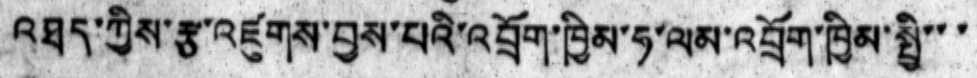འཐུད་ཀྱིས་རྩ་འཛུགས་བྱས་པའི་འབྲོག་ཁྱིམ་ཧ་ལམ་འབྲོག་ཁྱིམ་སྤྱི་་་
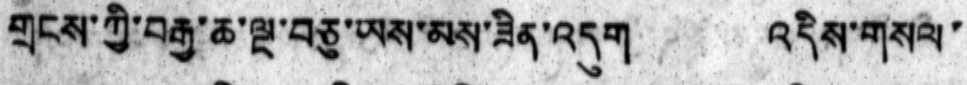གྲངས་ཀྱི་བརྒྱ་ཆ་ལྔ་བཅུ་ཡས་མས་ཟིན་འདུག འདིས་གསལ་
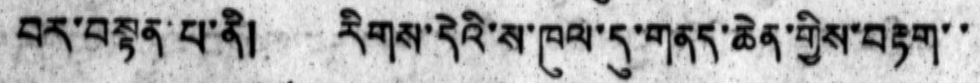བར་བསྟན་པ་ནི། རིགས་དེའི་ས་ཁུལ་དུ་གནད་ཆེན་གྱིས་བརྟག་་
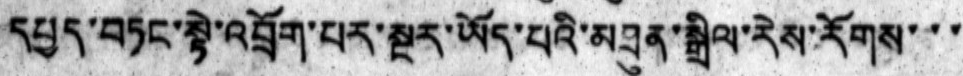དཔྱད་བཏང་སྟེ་འབྲོག་པར་སྔར་ཡོད་པའི་མཐུན་སྒྲིལ་རེས་རོགས་་་
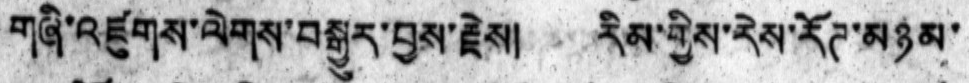གཞི་འཛུགས་ལེགས་བསྒྱུར་བྱས་རྗེས། རིམ་གྱིས་རེས་རོཊ་མཉམ་
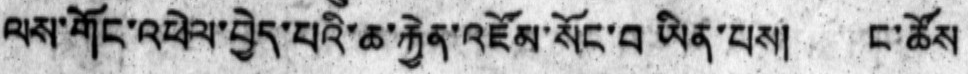ལས་གོང་འཕེལ་བྱེད་པའི་ཆ་རྐྱེན་འཛོམ་སོང་བ ཡིན་པས། ང་ཚོས་
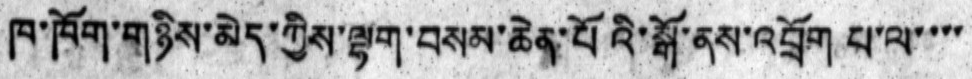ཁ་ཁོག་གཉིས་མེད་ཀྱིས་ལྷག་བསམ་ཆེན་པོའི་སྒོ་ནས་འབྲོག པ་ལ་་་་
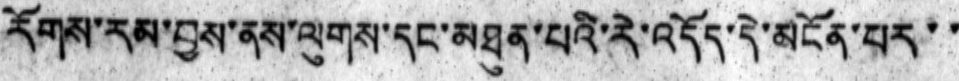རོགས་རམ་བྱས་ནས་ལུགས་དང་མཐུན་པའི་རེ་འདོད་དེ་མངོན་པར་་
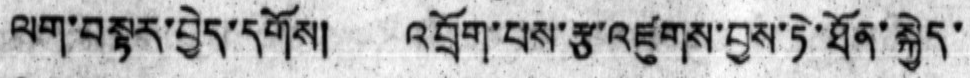ལག་བསྟར་བྱེད་དགོས། འབྲོག་པས་རྩ་འཛུགས་བྱས་ཏེ་ཐོན་སྐྱེད་
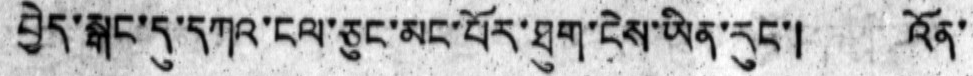བྱེད་སྒང་དུ་དཀའ་ངལ་ཅུང་མང་པོར་ཐུག་ངེས་ཡིན་རུང་། འོན་
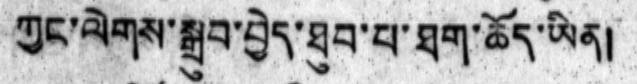ཀྱང་ལེགས་སྒྲུབ་བྱེད་ཐུབ་པ་ཐག་ཆོད་ཡིན།
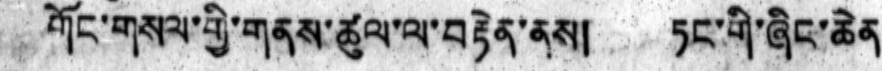གོང་གསལ་གྱི་གནས་ཚུལ་ལ་བརྟེན་ནས། ཏང་གི་ཞིང་ཆེན
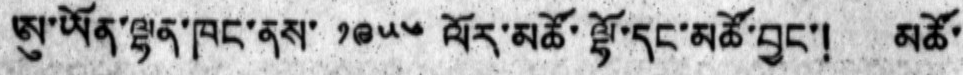ཨུ་ཡོན་ལྷན་ཁང་ནས་ ༡༩༥༦ ལོར་མཚོ་ལྷོ་དང་མཚོ་བྱང་། མཚོ་
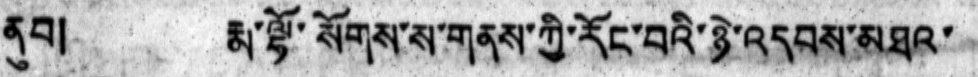ནུབ། རྨ་ལྷོ་སོགས་ས་གནས་ཀྱི་རོང་བའི་ཉེ་འདབས་མཐའ་
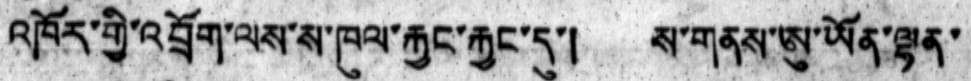འཁོར་གྱི་འབྲོག་ལས་ས་ཁུལ་རྐྱང་རྐྱང་དུ་། ས་གནས་ཨུ་ཡོན་ལྷན་
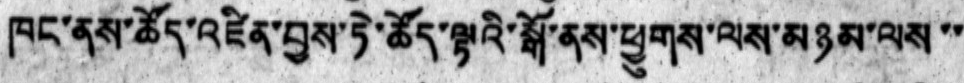ཁང་ནས་ཚོད་འཛིན་བྱས་ཏེ་ཚོད་ལྟའི་སྒོ་ནས་ཕྱུགས་ལས་མཉམ་ལས་་
